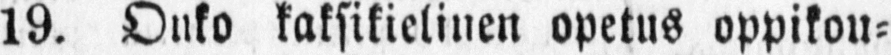19. Onko kaksikielinen opetus oppikou-
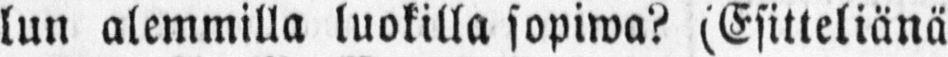lun alemmilla luokilla sopiwa? (Esitteliänä
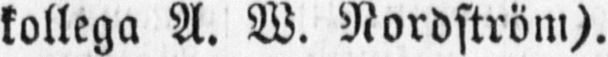kollega A. W. Nordström).
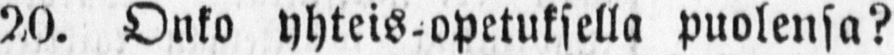20. Onko yhteis-opetuksella puolensa?
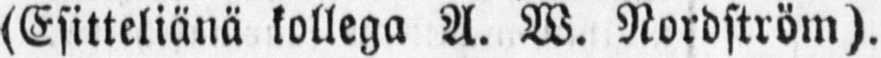(Esitteliänä kollega A. W. Nordström).
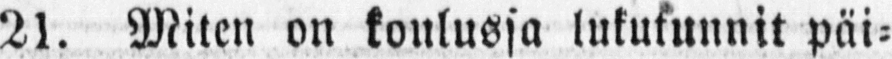21. Miten on koulussa lukutunnit päi-
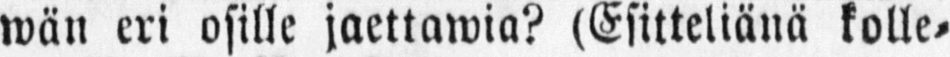wän eri osille jaettawia? (Esitteliänä kolle-
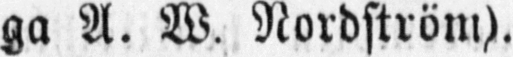ga A. W. Nordström).
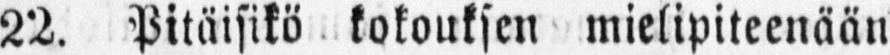22. Pitäisikö kokouksen mielipiteenään
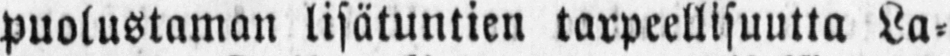puolustaman lisätuntien tarpeellisuutta La-
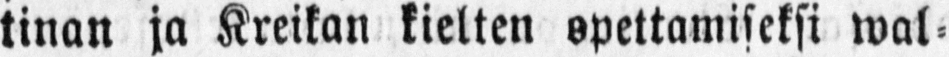tinan ja Kreikan kielten opettamiseksi wal-
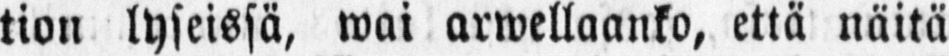tion lyseissä, wai arwellaanko, että näitä
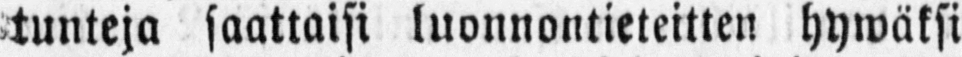tunteja saattaisi luonnontieteitten hywäksi
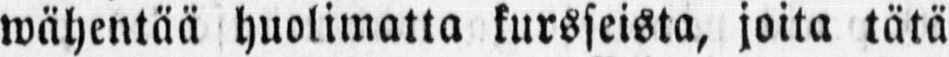wähentää huolimatta kursseista, joita tätä
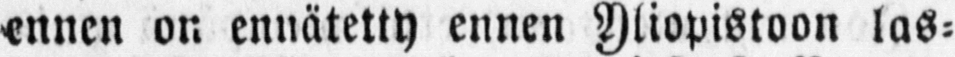ennen on ennätetty ennen Yliopistoon las-
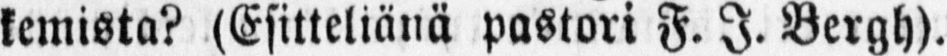kemista? (Esitteliänä pastori F. I. Bergh).
